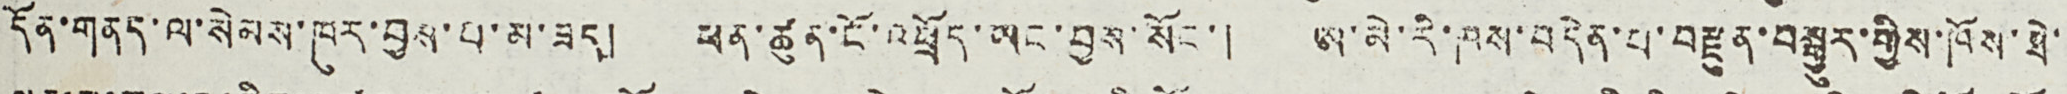དོན་གནད་ལ་སེམས་ཁུར་བྱས་པ་མ་ཟད། ཕན་ཚུན་ངོ་འཕྲོད་ཡང་བྱས་སོང་། ཨ་མེ་རི་ཁས་བདེན་པ་བརྫུན་བསྒྱུར་གྱིས་ཁོས་ཐེ་
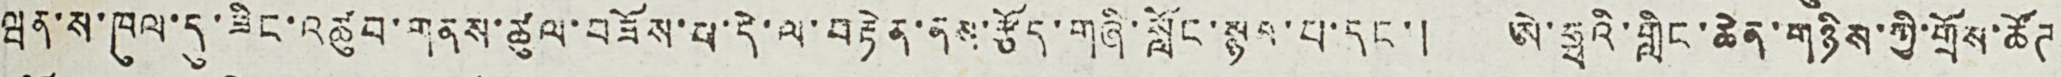ཝན་ས་ཁུལ་དུ་ཟིང་འཚུབ་གནས་ཚུལ་བཟོས་པ་དེ་ལ་བརྟེན་ནས་རྩོད་གཞི་སློང་སྙམ་པ་དང་། ཨེ་ཧྥའི་གླིང་ཆེན་གཉིས་ཀྱི་གྲོས་ཚོཊ
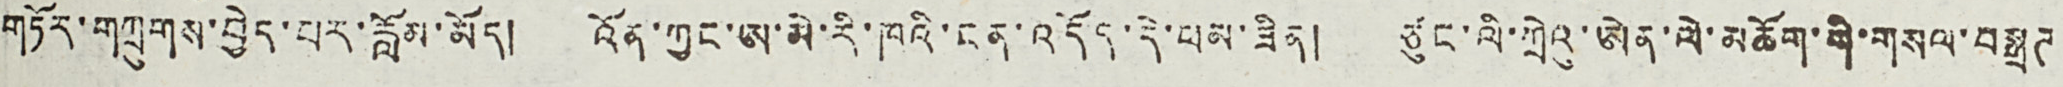གཏོར་གཀྲུགས་བྱེད་པར་རློམ་མོད། འོན་ཀྱང་ཨ་མེ་རི་ཁའི་ངན་འདོད་དེ་ཕན་ཟིན། ཙུང་ལི་ཀྲེའུ་ཨེན་ལེ་མཆོག་གསལ་བསྒྲཊ
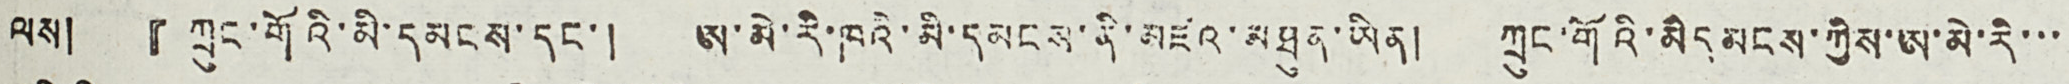ལས། 『ཀྲུང་གོའི་མི་དམངས་དང་། ཨ་མེ་རི་ཁའི་མི་དམངས་ནི་མཛའ་མཐུན་ཡིན། ཀྲུང་གོའི་མི དམངས་ཀྱིས་ཨ་མེ་རི་་་
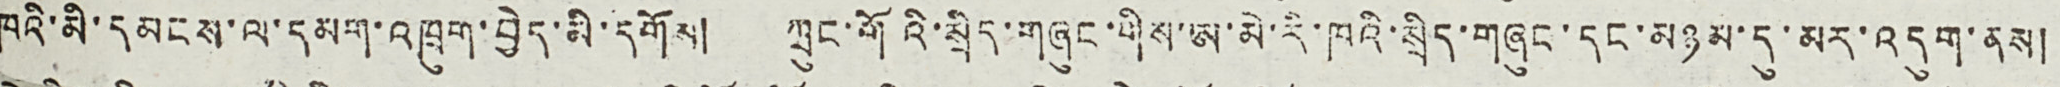ཁའི་མི་དམངས་ལ་དམག་འཁྲུག་བྱེད་མི་དགོས། ཀྲུང་གོའི་སྲིད་གཞུང་གིས་ཨ་མེ་རི་ཁའི་སྲིད་གཞུང་དང་མཉམ་དུ་མར་འདུག་ནས།
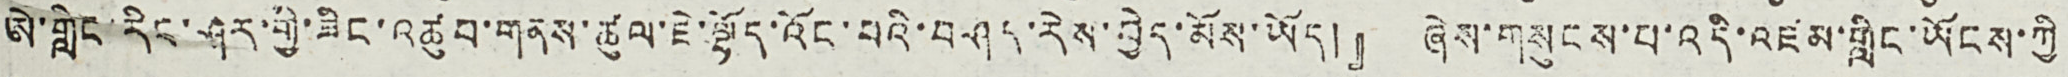ཨེ་གླིང་རིང་ཤར་གྱི་ཟིང་འཚུབ་གནས་ཚུལ་ཇེ་ལྷོད་འོང་བའི་བཤད་རེས་བྱེད་མོས་ཡོད།』 ཞེས་གསུངས་པ་འདི་འཛམ་གླིང་ཡོངས་ཀྱི
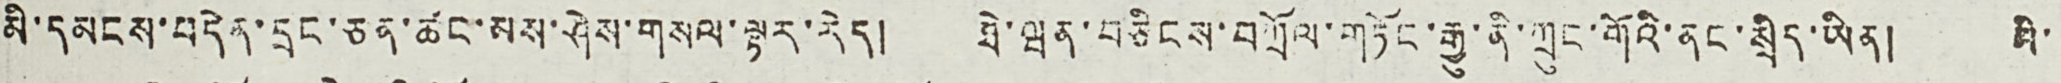མི་དམངས་བདེན་དྲང་ཅན་ཚང་མས་ཤེས་གསལ་ལྟར་རེད། ཐེ་ཝན་བཅིངས་བཀྲོལ་གཏོང་རྒྱུ་ནི་ཀྲུང་གོའི་ནང་སྲིད་ཡིན། མི་
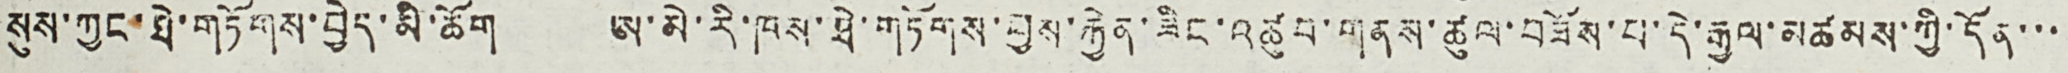སུས་ཀྱང་ཐེ་གཏོགས་བྱེད་མི་ཆོག ཨ་མེ་རི་ཁས་ཐེ་གཏོགས་བྱས་རྐྱེན་ཟིང་འཚུབ་གནས་ཚུལ་བཟོས་པ་དེ་རྒྱལ་མཚམས་ཀྱི་དོན་་་
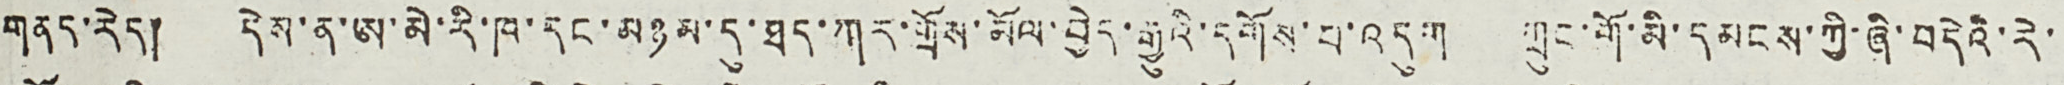གནད་རེད། དེས་ན་ཨ་མེ་རི་ཁ་དང་མཉམ་དུ་ཐད་ཀར་གྲོས་མོལ་བྱེད་རྒྱུའི་དགོས་པ་འདུག ཀྲུང་གོ་མི་དམངས་ཀྱི་ཞི་བདེའི་རེ་
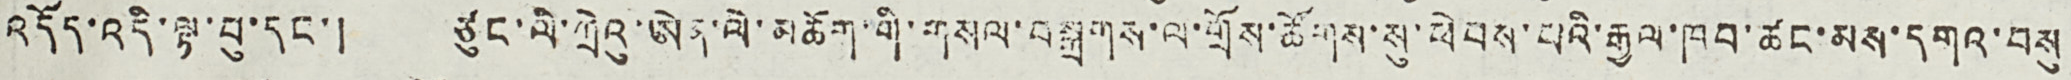འདོད་འདི་ལྟ་བུ་དང་། ཙུང་ལི་ཀྲེའུ་ཨེན་ལེ་མཆོག་གི་གསལ་བསྒྲགས་ལ་གྲོས་ཚོགས་སུ་ཕེབས་པའི་རྒྱལ་ཁབ་ཚང་མས་དགའ་བསུ
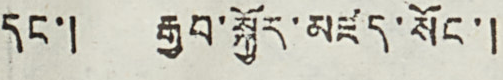དང་། རྒྱབ་སྐྱོར་མཛད་སོང་།
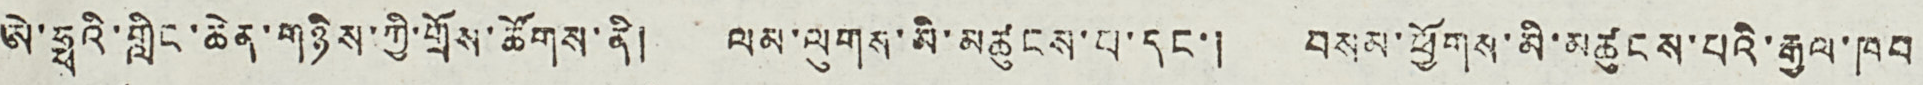ཨེ་ཧྥའི་གླིང་ཆེན་གཉིས་ཀྱི་གྲོས་ཚོགས་ནི། ལམ་ལུགས་མི་མཚུངས་པ་དང་། བསམ་ཕྱོགས་མི་མཚུངས་པའི་རྒྱལ་ཁབ
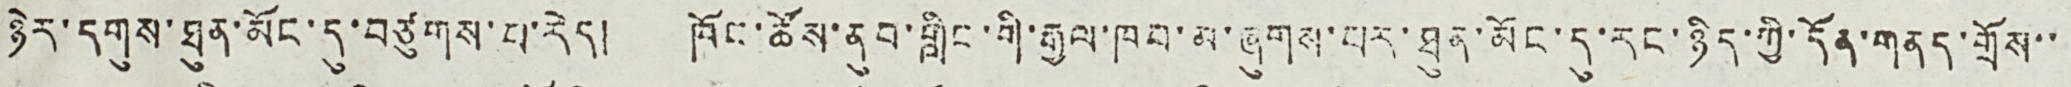ཉེར་དགུས་ཐུན་མོང་དུ་བཙུགས་པ་རེད། ཁོང་ཚོས་ནུབ་གླིང་གི་རྒྱལ་ཁབ་མ་ཞུགས་པར་ཐུན་མོང་དུ་རང་ཉིད་ཀྱི་དོན་གནད་གྲོས་་
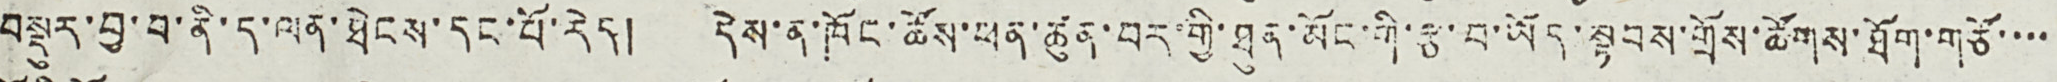བསྡུར་བྱ་བ་ནི་ད་ལན་ཐེངས་དང་པོ་རེད། དེས་ན་ཁོང་ཚོས་ཕན་ཚུན་བར་གྱི་ཐུན་མོང་གི་རྩ་བ་ཡོད་སྟབས་གྲོས་ཚོགས་ཐོག་གཙོ་་་་
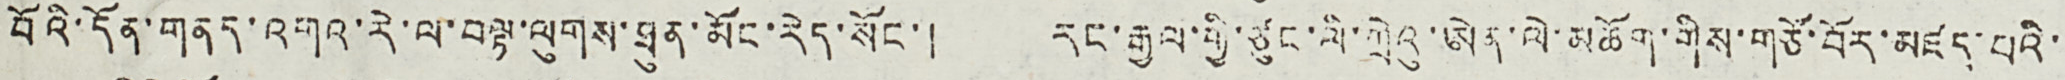བོའི་དོན་གནད་འགའ་རེ་ལ་བལྟ་ལུགས་ཐུན་མོང་རེད་སོང་། རང་རྒྱལ་གྱི་ཙུང་ལི་ཀྲེའུ་ཨེན་ལེ་མཆོག་གིས་གཙོ་བོར་མཛད་པའི་
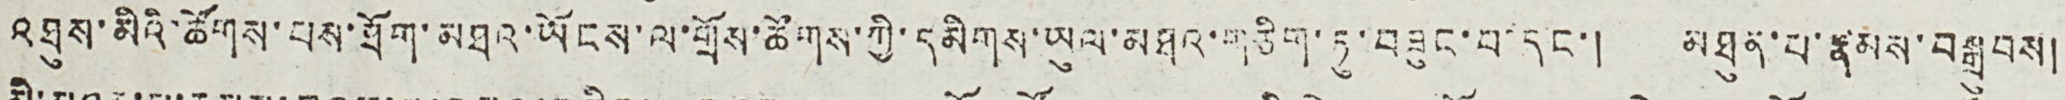འཐུས་མིའི་ཚོས་པས་ཐོག་མཐའ་ཡོངས་ལ་གྲོས་ཚོགས་ཀྱི་དམིགས་ཡུལ་མཐའ་གཅིག་ཏུ་བཟུང་བ་དང་། མཐུན་པ་རྣམས་བསྒྲུབས།
